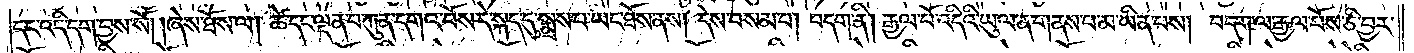དང་འདི་དག་བྱས་སོ། །ཞེས་ཐོས་ལ། ཚེ་དང་ལྡན་པ་ཀུན་དགའ་བོས་དེ་སྐད་དུ་སྨྲས་པ་ཡང་ཐོས་ནས། དེས་བསམ་པ། བདག་ནི། རྒྱལ་པོ་འདིའི་ཡུལ་ན་གནས་པ་མ་ཡིན་པས། བདག་ལ་རྒྱལ་པོས་ཅི་བྱར་
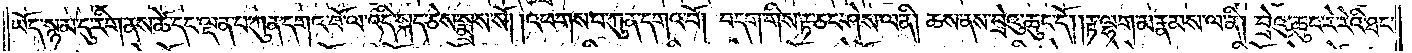ཡོད་སྙམ་དུ་རིག་ནས་ཚེ་དང་ལྡན་པ་ཀུན་དགའ་བོ་ལ་འདི་སྐད་ཅེས་སྨྲས་སོ། །འཕགས་པ་ཀུན་དགའ་བོ། །བདག་གིས་རྟ་ཅང་ཤེས་ལ་ནི། ཆས་ནས་བྲེའུ་ཆུང་དོ། །རྟ་ལྷག་མ་རྣམས་ལ་ནི། བྲེའུ་ཆུང་རེ་རེའི་ཐང་
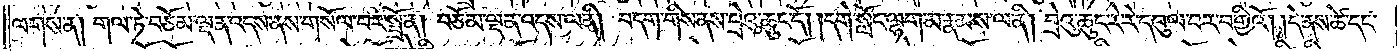ལགས་ན། གལ་ཏེ་བཅོམ་ལྡན་འདས་ནས་གསོལ་བར་སྤྲོ་ན། བཅོམ་ལྡན་འདས་ལ་ནི། བདག་གིས་ནས་བྲེའུ་ཆུང་ངོ༌། །དགེ་སློང་ལྷག་མ་རྣམས་ལ་ནི། བྲེའུ་ཆུང་རེ་རེ་དབུལ་བར་བགྱིའོ། །དེ་ནས་ཚེ་དང་
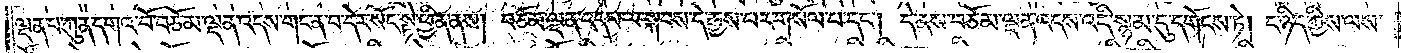ལྡན་པ་ཀུན་དགའ་བོ་བཅོམ་ལྡན་འདས་གང་ན་བ་དེར་སོང་སྟེ་ཕྱིན་ནས། བཅོམ་ལྡན་འདས་ལ་སྐབས་དེ་རྒྱས་པར་གསོལ་བ་དང༌། དེ་ནས་བཅོམ་ལྡན་འདས་འདི་སྙམ་དུ་དགོངས་ཏེ། ང་ཉིད་ཀྱིས་ལས་
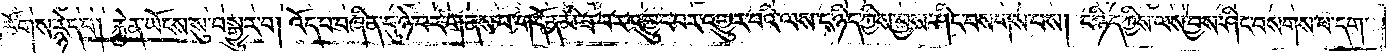ཚོགས་རྙེད་པ། རྐྱེན་ཡོངས་སུ་བསྒྱུར་བ། འོད་པ་བཞིན་དུ་ཉེ་བར་གནས་པ་གདོན་མི་ཟ་བར་འབྱུང་བར་འགྱུར་པའི་ལས་ང་ཉིད་ཀྱིས་བྱས་ཤིང་བསགས་པས། ང་ཉིད་ཀྱིས་ལས་བྱས་ཤིང་བསགས་པ་དག་
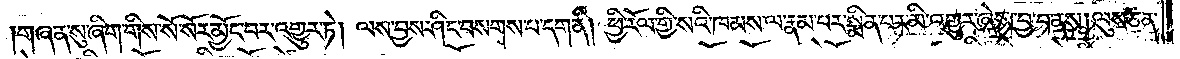།གཞན་སུ་ཞིག་གིས་སོ་སོར་མྱོང་བར་འགྱུར་ཏེ། ལས་བྱས་ཤིང་བསགས་པ་དག་ནི། ཕྱི་རོལ་གྱི་སའི་ཁམས་ལ་རྣམ་པར་སྨིན་པར་མི་འགྱུར་ཞེས་བྱ་བ་ནས། ལུས་ཅན་
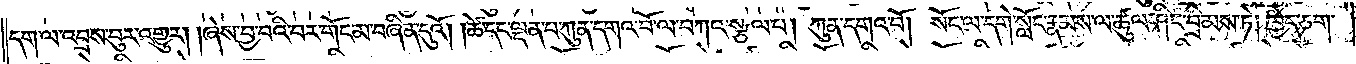དག་ལ་འབྲས་བུར་འགྱུར། །ཞེས་བྱ་བའི་བར་གོང་མ་བཞིན་དུའོ། །ཚེ་དང་ལྡན་པ་ཀུན་དགའ་བོ་ལ་བཀའ་སྩལ་པ། ཀུན་དགའ་བོ། །སོང་ལ་དགེ་སློང་རྣམས་ལ་ཚུལ་ཤིང་བྲིམས་ཏེ། ཁྱེད་ཅག་
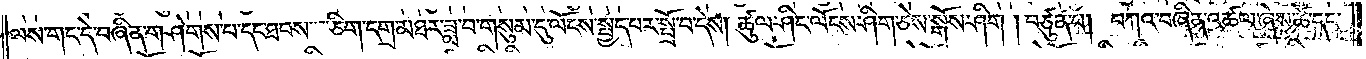ལས་གང་དེ་བཞིན་གཤེགས་པ་དང་ཐབས་ཅིག་དགྲ་མཐར་ཟླ་བ་གསུམ་དུ་ལོངས་སྤྱད་པར་སྤྲོ་བ་དེས། ཚུལ་ཤིང་ལོངས་ཤིག་ཅེས་སྒོས་ཤིག །བཙུན་པ། བཀའ་བཞིན་འཚལ་ཞེས་ཚེ་དང་
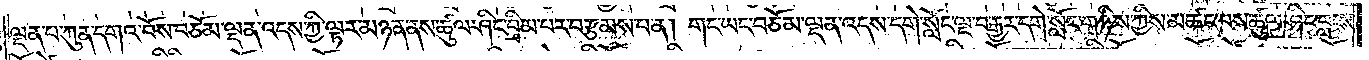ལྡན་པ་ཀུན་དགའ་བོས་བཅོམ་ལྡན་འདས་ཀྱི་ལྟར་མཉན་ནས་ཚུལ་ཤིང་བྲིམ་པར་བརྩམས་པ་ན། གང་ཡང་བཅོམ་ལྡན་འདས་དགེ་སློང་ལྔ་བ་རྒྱར་དགེ་སློང་གཉིས་ཀྱིས་མ་ཚང་བས་ཚུལ་ཤིང་བླངས་
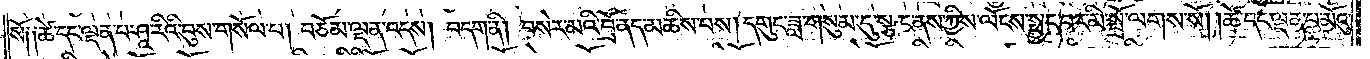སོ༑ ༑ཚེ་དང་ལྡན་པ་ཤཱ་རིའི་བུས་གསོལ་བ། བཅོམ་ལྡན་འདས། བདག་ནི། བསེར་མའི་བྲོ་ནད་མཆིས་པས། དགུང་ཟླ་གསུམ་དུ་སྩང་ནས་ཀྱིས་ལོངས་སྤྱད་པར་མི་སྤྲོ་ལགས་སོ། །ཚེ་དང་ལྡན་པ་མོའུ་
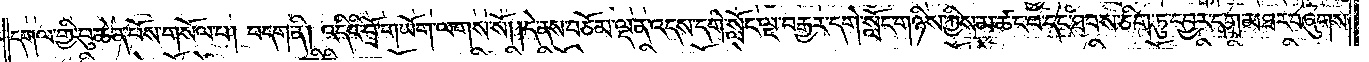དགལ་གྱི་བུ་ཆེན་པོས་གསོལ་བ། བདག་ནི། འདིའི་བྲོ་གཡོག་ལགས་སོ། །དེ་ནས་བཅོམ་ལྡན་འདས་དགེ་སློང་ལྔ་བརྒྱར་དགེ་སློང་གཉིས་ཀྱིས་མ་ཚང་བ་དང་ཐབས་ཅིག་ཏུ་དབྱར་དགྲ་མཐར་བཞུགས་
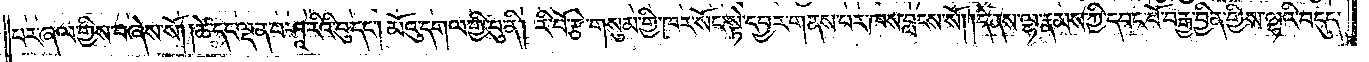པར་ཞལ་གྱིས་བཞེས་སོ། །ཚེ་དང་ལྡན་པ་ཤཱ་རིའི་བུ་དང༌། མོའུ་དགལ་གྱི་བུ་ནི། རི་བོ་རྩེ་གསུམ་གྱི་ཁར་སོང་སྟེ་དབྱར་གནས་པར་ཁས་བླངས་སོ། །དེ་ནས་ལྷ་རྣམས་ཀྱི་དབང་པོ་བརྒྱ་བྱིན་གྱིས་ལྷའི་བདུད་
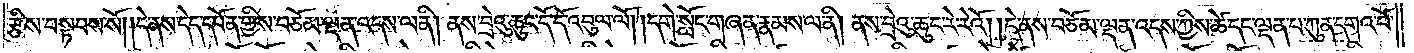རྩིས་བསྟབས་སོ། །དེ་ནས་དེད་དཔོན་གྱིས་བཅོམ་ལྡན་འདས་ལ་ནི། ནས་བྲེའུ་ཆུང་དོ་དོ་འབུལ་ལོ། །དགེ་སློང་གཞན་རྣམས་ལ་ནི། ནས་བྲེའུ་ཆུང་རེ་རེའོ། །དེ་ནས་བཅོམ་ལྡན་འདས་ཀྱིས་ཚེ་དང་ལྡན་པ་ཀུན་དགའ་བོ་
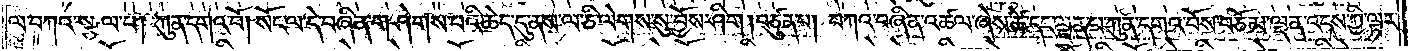ལ་བཀའ་སྩལ་པ། ཀུན་དགའ་བོ། སོང་ལ་དེ་བཞིན་གཤེགས་པའི་ཆེད་དུ་ནས་ལ་ཅི་ལེགས་སུ་བྱོས་ཤིག །བཙུན་པ། བཀའ་བཞིན་འཚལ་ཞེས་ཚེ་དང་ལྡན་པ་ཀུན་དགའ་བོས་བཅོམ་ལྡན་འདས་ཀྱི་ལྟར་
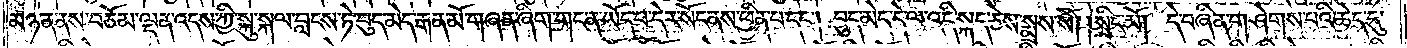མཉན་ནས་བཅོམ་ལྡན་འདས་ཀྱི་སྐུ་སྐལ་བླངས་ཏེ་བུད་མེད་རྒན་མོ་གཞན་ཞིག་གང་ན་ཡོད་པ་དེར་སོང་ནས་ཕྱིན་པ་དང༌། བུད་མེད་དེ་ལ་འདི་སྐད་ཅེས་སྨྲས་སོ། །སྲིང་མོ། དེ་བཞིན་གཤེགས་པའི་ཆེད་དུ་
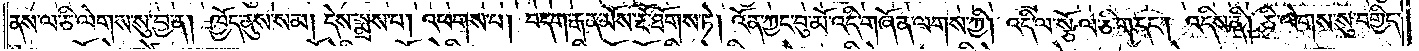ནས་ལ་ཅི་ལེགས་སུ་བྱ་ན། ཁྱོད་ནུས་སམ། དེས་སྨྲས་པ། འཕགས་པ། བདག་རྒན་མོས་རྔོ་ཐོགས་ཏེ། འོན་ཀྱང་བུ་མོ་འདི་གཞོན་ལགས་ཀྱི། འདི་ལ་སྩོལ་ཅིག་དང༌། འདིས་ནི། ཅི་ལེགས་སུ་བགྱིད་
